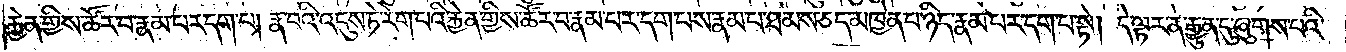རྐྱེན་གྱིས་ཚོར་བ་རྣམ་པར་དག་པ། རྣ་བའི་འདུས་ཏེ་རེག་པའི་རྐྱེན་གྱིས་ཚོར་བ་རྣམ་པར་དག་པས་རྣམ་པ་ཐམས་ཅད་མཁྱེན་པ་ཉིད་རྣམ་པར་དག་པ་སྟེ། དེ་ལྟར་ན་རྒྱུན་དུ་ཞུགས་པའི་
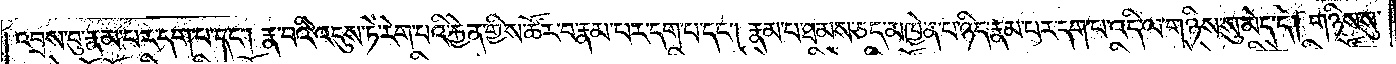འབྲས་བུ་རྣམ་པར་དག་པ་དང༌། རྣ་བའི་འདུས་ཏེ་རེག་པའི་རྐྱེན་གྱིས་ཚོར་བ་རྣམ་པར་དག་པ་དང༌། རྣམ་པ་ཐམས་ཅད་མཁྱེན་པ་ཉིད་རྣམ་པར་དག་པ་འདི་ལ་གཉིས་སུ་མེད་དེ། གཉིས་སུ་
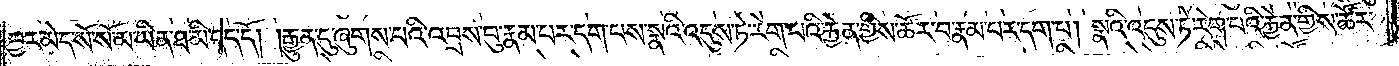བྱར་མེད་སོ་སོ་མ་ཡིན་ཐ་མི་དད་དོ། །རྒྱུན་དུ་ཞུགས་པའི་འབྲས་བུ་རྣམ་པར་དག་པས་སྣའི་འདུས་ཏེ་རེག་པའི་རྐྱེན་གྱིས་ཚོར་བ་རྣམ་པར་དག་པ། སྣའི་འདུས་ཏེ་རེག་པའི་རྐྱེན་གྱིས་ཚོར་
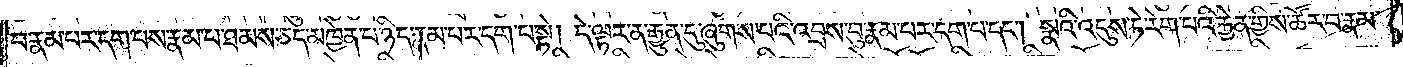བ་རྣམ་པར་དག་པས་རྣམ་པ་ཐམས་ཅད་མཁྱེན་པ་ཉིད་རྣམ་པར་དག་པ་སྟེ། དེ་ལྟར་ན་རྒྱུན་དུ་ཞུགས་པའི་འབྲས་བུ་རྣམ་པར་དག་པ་དང༌། སྣའི་འདུས་ཏེ་རེག་པའི་རྐྱེན་གྱིས་ཚོར་བ་རྣམ་
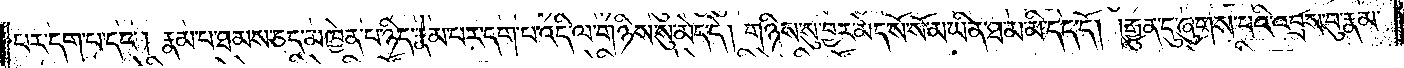པར་དག་པ་དང༌། རྣམ་པ་ཐམས་ཅད་མཁྱེན་པ་ཉིད་རྣམ་པར་དག་པ་འདི་ལ་གཉིས་སུ་མེད་དེ། གཉིས་སུ་བྱར་མེད་སོ་སོ་མ་ཡིན་ཐ་མི་དད་དོ། །རྒྱུན་དུ་ཞུགས་པའི་འབྲས་བུ་རྣམ་
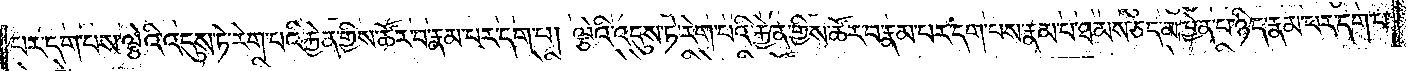པར་དག་པས་ལྕེའི་འདུས་ཏེ་རེག་པའི་རྐྱེན་གྱིས་ཚོར་བ་རྣམ་པར་དག་པ། ལྕེའི་འདུས་ཏེ་རེག་པའི་རྐྱེན་གྱིས་ཚོར་བ་རྣམ་པར་དག་པས་རྣམ་པ་ཐམས་ཅད་མཁྱེན་པ་ཉིད་རྣམ་པར་དག་པ་
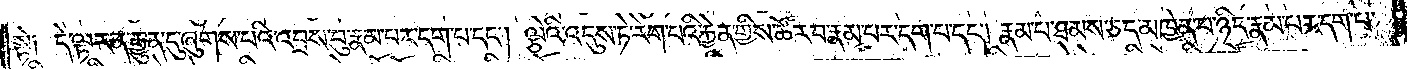སྟེ༑ དེ་ལྟར་ན་རྒྱུན་དུ་ཞུགས་པའི་འབྲས་བུ་རྣམ་པར་དག་པ་དང༌། ལྕེའི་འདུས་ཏེ་རེག་པའི་རྐྱེན་གྱིས་ཚོར་བ་རྣམ་པར་དག་པ་དང༌། རྣམ་པ་ཐམས་ཅད་མཁྱེན་པ་ཉིད་རྣམ་པར་དག་པ་
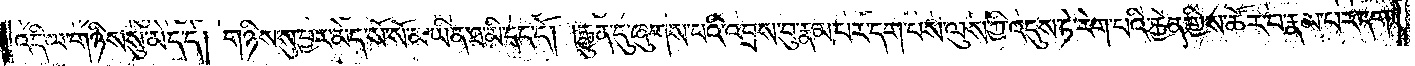འདི་ལ་གཉིས་སུ་མེད་དེ། གཉིས་སུ་བྱར་མེད་སོ་སོ་མ་ཡིན་ཐ་མི་དད་དོ། །རྒྱུན་དུ་ཞུགས་པའི་འབྲས་བུ་རྣམ་པར་དག་པས་ལུས་ཀྱི་འདུས་ཏེ་རེག་པའི་རྐྱེན་གྱིས་ཚོར་བ་རྣམ་པར་དག་
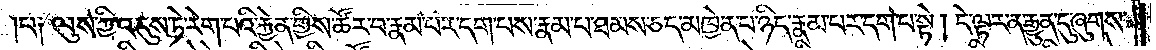པ༑ ལུས་ཀྱི་འདུས་ཏེ་རེག་པའི་རྐྱེན་གྱིས་ཚོར་བ་རྣམ་པར་དག་པས་རྣམ་པ་ཐམས་ཅད་མཁྱེན་པ་ཉིད་རྣམ་པར་དག་པ་སྟེ། དེ་ལྟར་ན་རྒྱུན་དུ་ཞུགས་
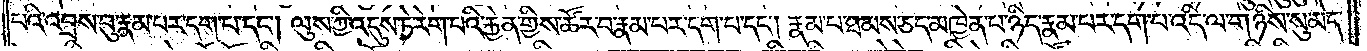པའི་འབྲས་བུ་རྣམ་པར་དག་པ་དང༌། ལུས་ཀྱི་འདུས་ཏེ་རེག་པའི་རྐྱེན་གྱིས་ཚོར་བ་རྣམ་པར་དག་པ་དང༌། རྣམ་པ་ཐམས་ཅད་མཁྱེན་པ་ཉིད་རྣམ་པར་དག་པ་འདི་ལ་གཉིས་སུ་མེད་
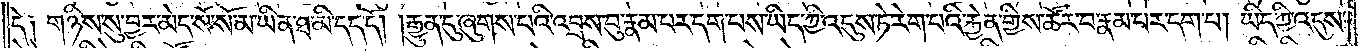དེ༑ གཉིས་སུ་བྱར་མེད་སོ་སོ་མ་ཡིན་ཐ་མི་དད་དོ། །རྒྱུན་དུ་ཞུགས་པའི་འབྲས་བུ་རྣམ་པར་དག་པས་ཡིད་ཀྱི་འདུས་ཏེ་རེག་པའི་རྐྱེན་གྱིས་ཚོར་བ་རྣམ་པར་དག་པ། ཡིད་ཀྱི་འདུས་
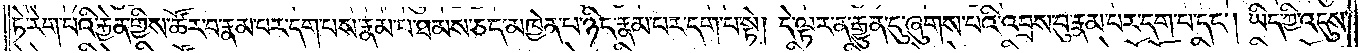ཏེ་རེག་པའི་རྐྱེན་གྱིས་ཚོར་བ་རྣམ་པར་དག་པས་རྣམ་པ་ཐམས་ཅད་མཁྱེན་པ་ཉིད་རྣམ་པར་དག་པ་སྟེ། དེ་ལྟར་ན་རྒྱུན་དུ་ཞུགས་པའི་འབྲས་བུ་རྣམ་པར་དག་པ་དང༌། ཡིད་ཀྱི་འདུས་
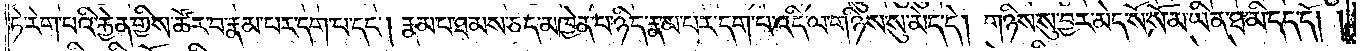ཏེ་རེག་པའི་རྐྱེན་གྱིས་ཚོར་བ་རྣམ་པར་དག་པ་དང༌། རྣམ་པ་ཐམས་ཅད་མཁྱེན་པ་ཉིད་རྣམ་པར་དག་པ་འདི་ལ་གཉིས་སུ་མེད་དེ། གཉིས་སུ་བྱར་མེད་སོ་སོ་མ་ཡིན་ཐ་མི་དད་དོ། །
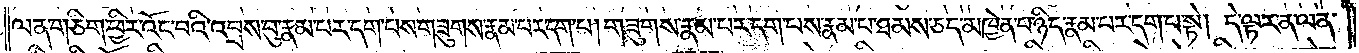ལན་གཅིག་ཕྱིར་འོང་བའི་འབྲས་བུ་རྣམ་པར་དག་པས་གཟུགས་རྣམ་པར་དག་པ། གཟུགས་རྣམ་པར་དག་པས་རྣམ་པ་ཐམས་ཅད་མཁྱེན་པ་ཉིད་རྣམ་པར་དག་པ་སྟེ། དེ་ལྟར་ན་ལན་
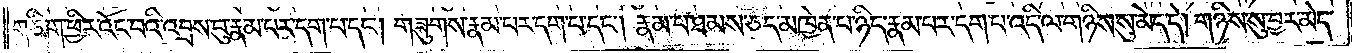གཅིག་ཕྱིར་འོང་བའི་འབྲས་བུ་རྣམ་པར་དག་པ་དང༌། གཟུགས་རྣམ་པར་དག་པ་དང༌། རྣམ་པ་ཐམས་ཅད་མཁྱེན་པ་ཉིད་རྣམ་པར་དག་པ་འདི་ལ་གཉིས་སུ་མེད་དེ། གཉིས་སུ་བྱར་མེད་
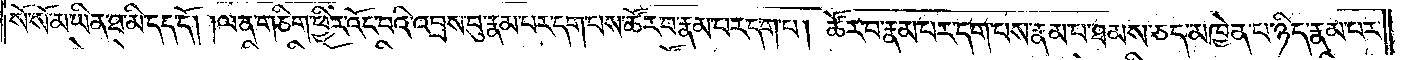སོ་སོ་མ་ཡིན་ཐ་མི་དད་དོ། །ལན་གཅིག་ཕྱིར་འོང་བའི་འབྲས་བུ་རྣམ་པར་དག་པས་ཚོར་བ་རྣམ་པར་དག་པ། ཚོར་བ་རྣམ་པར་དག་པས་རྣམ་པ་ཐམས་ཅད་མཁྱེན་པ་ཉིད་རྣམ་པར་
